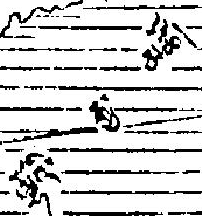ལྷོའི་རྒྱ་མཚོ།
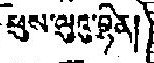ཕུས་ལུའུ་བྷིན།
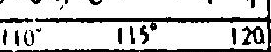110° 115° 120°
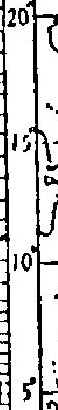20° 15° 10° 5°
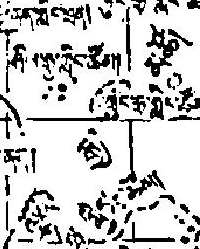ལྷོའི་རྒྱ་མཚོ།
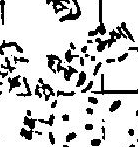ནན་ཧྲ་གླིང་ཚོམ།
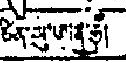ཙིན་མུ་ཨན་ཧྲ།
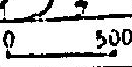0 500
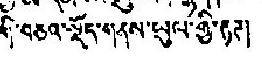གི་བཅའ་སྡོད་གནས་ཡུལ་གྱི་རྟཊ།
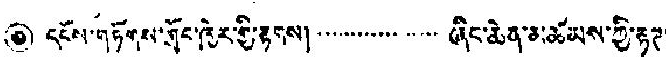◉ དངོས་གཏོགས་གྲོང་ཁྱེར་གྱི་རྟགས།  ┈ ┈ ┈ ┈ ཞིང་ཆེན་མཚོམས་ཀྱི་རྟཊ།
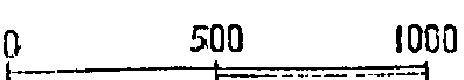0 500 1000
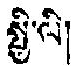སྤྱི་ལི།
